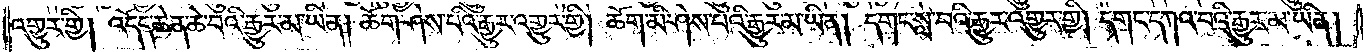འགྱུར་གྱི། འདོད་ཆེན་ཆེ་བའི་རྒྱུར་མ་ཡིན། ཆོག་ཤེས་པའི་རྒྱུར་འགྱུར་གྱི། ཆོག་མི་ཤེས་པའི་རྒྱུར་མ་ཡིན། དགང་སླ་བའི་རྒྱུར་འགྱུར་གྱི། དགང་དཀའ་བའི་རྒྱུར་མ་ཡིན།
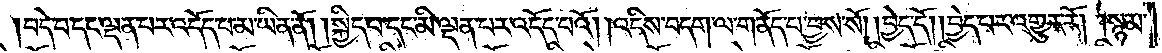བདེ་བ་དང་ལྡན་པར་འདོད་པ་མ་ཡིན་ནོ། །སྐྱིད་པ་དང་མི་ལྡན་པར་འདོད་པའོ། །འདིས་བདག་ལ་གནོད་པ་བྱས་སོ། །བྱེད་དོ། །བྱེད་པར་འགྱུར་རོ། །སྙམ་
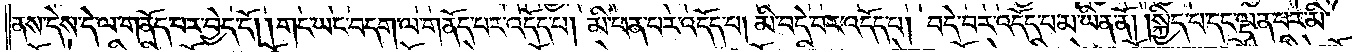ནས་དེས་དེ་ལ་གནོད་པར་བྱེད་དོ། །གང་ཡང་བདག་ལ་གནོད་པར་འདོད་པ། མི་ཕན་པར་འདོད་པ། མི་བདེ་བར་འདོད་པ། བདེ་བར་འདོད་པ་མ་ཡིན་ནོ། །སྐྱིད་པ་དང་ལྡན་པར་མི་
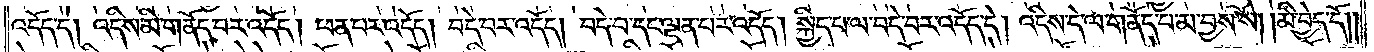འདོད་དེ། འདིས་མི་གནོད་པར་འདོད། ཕན་པར་འདོད། བདེ་བར་འདོད། བདེ་བ་དང་ལྡན་པར་འདོད། སྐྱིད་པ་ལ་བདེ་བར་འདོད་དེ། འདིས་དེ་ལ་གནོད་པ་མ་བྱས་སོ། །མི་བྱེད་དོ།
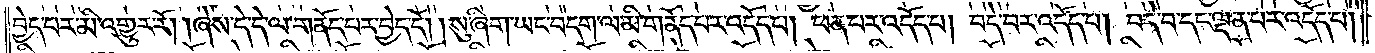བྱེད་པར་མི་འགྱུར་རོ། །ཞེས་དེ་དེ་ལ་གནོད་པར་བྱེད་དོ། །སུ་ཞིག་ཡང་བདག་ལ་མི་གནོད་པར་འདོད་པ། ཕན་པར་འདོད་པ། བདེ་བར་འདོད་པ། བདེ་བ་དང་ལྡན་པར་འདོད་པ།
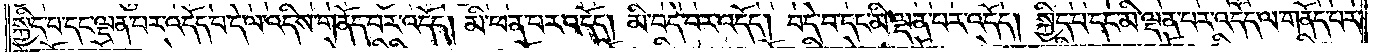སྐྱིད་པ་དང་ལྡན་པར་འདོད་པ་དེ་ལ་འདིས་གནོད་པར་འདོད། མི་ཕན་པར་འདོད། མི་བདེ་བར་འདོད། བདེ་བ་དང་མི་ལྡན་པར་འདོད། སྐྱིད་པ་དང་མི་ལྡན་པར་འདོད་ལ་གནོད་པར་
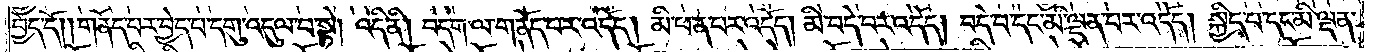བྱེད་དོ། །གནོད་པར་བྱེད་པ་དགུ་འདུལ་བ་སྟེ། འདི་ནི། བདག་ལ་གནོད་པར་འདོད། མི་ཕན་པར་འདོད། མི་བདེ་བར་འདོད། བདེ་བ་དང་མི་ལྡན་པར་འདོད། སྐྱིད་པ་དང་མི་ལྡན་
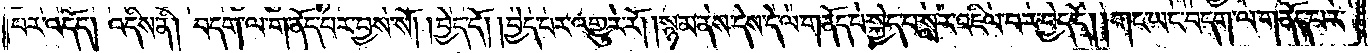པར་འདོད། འདིས་ནི། བདག་ལ་གནོད་པར་བྱས་སོ། །བྱེད་དོ། །བྱེད་པར་འགྱུར་རོ། །སྙམ་ནས་དེས་དེ་ལ་གནོད་པ་སྐྱེད་པ་སླར་འཇིལ་བར་བྱེད་དོ། །གང་ཡང་བདག་ལ་གནོད་པར་
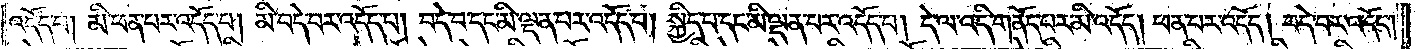འདོད་པ། མི་ཕན་པར་འདོད་པ། མི་བདེ་བར་འདོད་པ། བདེ་བ་དང་མི་ལྡན་པར་འདོད་པ། སྐྱིད་པ་དང་མི་ལྡན་པར་འདོད་པ། དེ་ལ་འདི་གནོད་པར་མི་འདོད། ཕན་པར་འདོད། བདེ་བར་འདོད།
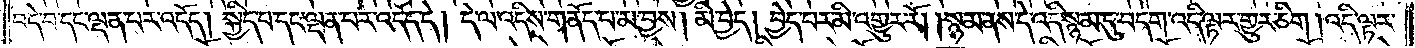བདེ་བ་དང་ལྡན་པར་འདོད། སྐྱིད་པ་དང་ལྡན་པར་འདོད་དེ། དེ་ལ་འདིས་གནོད་པ་མ་བྱས། མི་བྱེད། བྱེད་པར་མི་འགྱུར་རོ། །སྙམ་ནས་དེ་འདི་སྙམ་དུ་བདག་འདི་ལྟར་གྱུར་ཅིག །འདི་ལྟར་
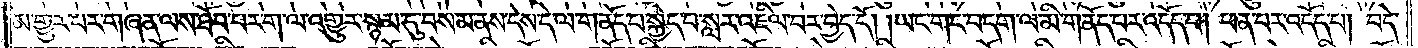མ་གྱུར་པར་གཞན་ལས་ཐོབ་པར་ག་ལ་འགྱུར་སྙམ་དུ་བསམ་ནས་དེས་དེ་ལ་གནོད་པ་སྐྱེད་པ་སླར་འཇིལ་བར་བྱེད་དོ། །ཡང་གང་བདག་ལ་མི་གནོད་པར་འདོད་པ། ཕན་པར་འདོད་པ། བདེ་
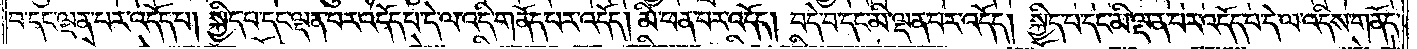བ་དང་ལྡན་པར་འདོད་པ། སྐྱིད་པ་དང་ལྡན་པར་འདོད་པ་དེ་ལ་འདི་གནོད་པར་འདོད། མི་ཕན་པར་འདོད། བདེ་བ་དང་མི་ལྡན་པར་འདོད། སྐྱིད་པ་དང་མི་ལྡན་པར་འདོད་པ་དེ་ལ་འདིས་གནོད་
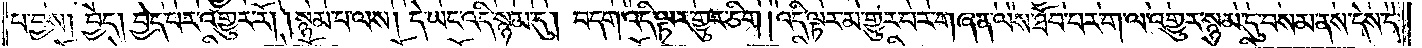པ་བྱས། བྱེད། བྱེད་པར་འགྱུར་རོ། །སྙམ་པ་ལས། དེ་ཡང་འདི་སྙམ་དུ། བདག་འདི་ལྟར་གྱུར་ཅིག །འདི་ལྟར་མ་གྱུར་པར་གཞན་ལས་ཐོབ་པར་ག་ལ་འགྱུར་སྙམ་དུ་བསམ་ནས་དེས་དེ་
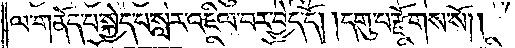ལ་གནོད་པ་སྐྱེད་པ་སླར་འཇིལ་བར་བྱེད་དོ། །དགུ་པ་རྫོགས་སོ༎
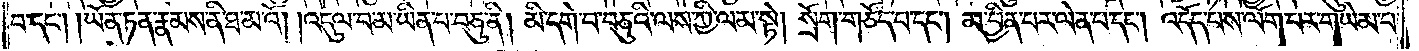བ་དང༌། །ཡོན་ཏན་རྣམས་ནི་ཐ་མ་འོ། །འདུལ་བ་མ་ཡིན་པ་བཅུ་ནི། མི་དགེ་བ་བཅུའི་ལས་ཀྱི་ལམ་སྟེ། སྲོག་གཅོད་པ་དང༌། མ་བྱིན་པར་ལེན་པ་དང༌། འདོད་པས་ལོག་པར་གཡེམ་པ་
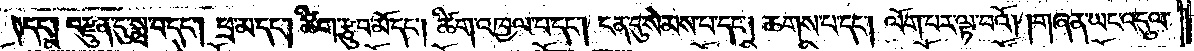དང༌། བརྫུན་དུ་སྨྲ་བ་དང༌། ཕྲ་མ་དང༌། ཚིག་རྩུབ་མོ་དང༌། ཚིག་འཁྱལ་པ་དང༌། ངན་དུ་སེམས་པ་དང༌། ཆགས་པ་དང༌། ལོག་པར་ལྟ་བའོ། །གཞན་ཡང་འདུལ་
